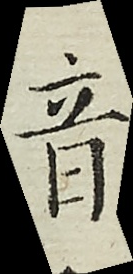音
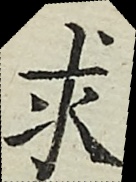求
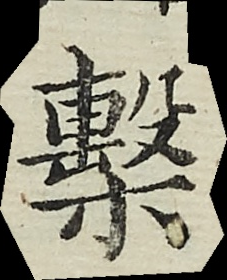檕
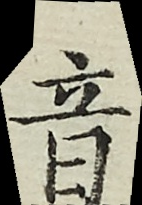音
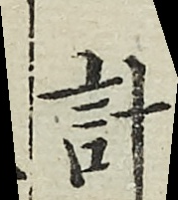計
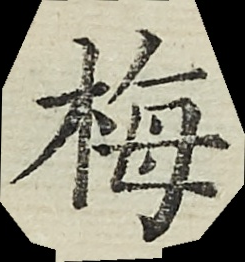梅
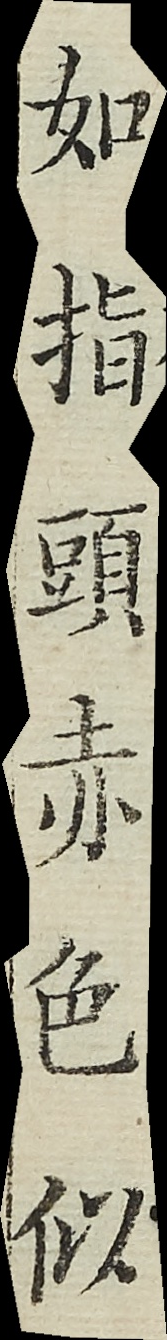如指頭赤色似
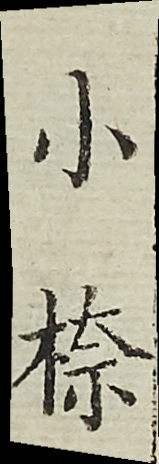小㮈
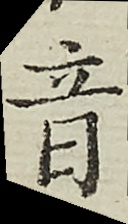音
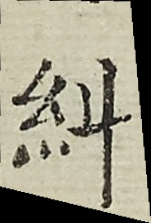糾
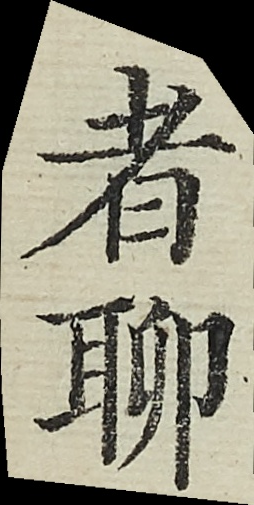者聊
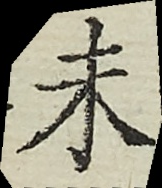未
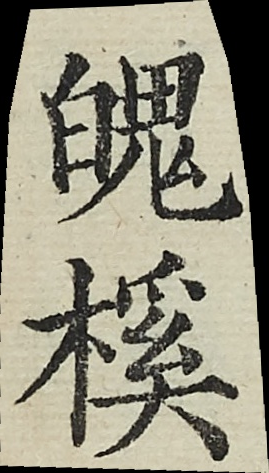魄榽
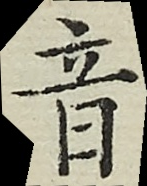音
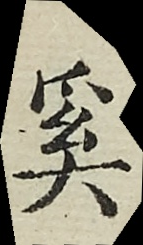奚
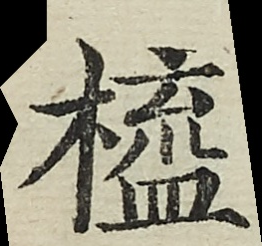橀
